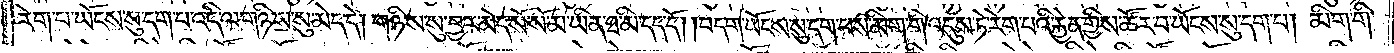རེག་པ་ཡོངས་སུ་དག་པ་འདི་ལ་གཉིས་སུ་མེད་དེ། གཉིས་སུ་བྱར་མེད་སོ་སོ་མ་ཡིན་ཐ་མི་དད་དོ། །བདག་ཡོངས་སུ་དག་པས་མིག་གི་འདུས་ཏེ་རེག་པའི་རྐྱེན་གྱིས་ཚོར་བ་ཡོངས་སུ་དག་པ། མིག་གི་
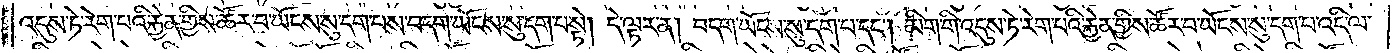འདུས་ཏེ་རེག་པའི་རྐྱེན་གྱིས་ཚོར་བ་ཡོངས་སུ་དག་པས་བདག་ཡོངས་སུ་དག་པ་སྟེ། དེ་ལྟར་ན། བདག་ཡོངས་སུ་དག་པ་དང༌། མིག་གི་འདུས་ཏེ་རེག་པའི་རྐྱེན་གྱིས་ཚོར་བ་ཡོངས་སུ་དག་པ་འདི་ལ་
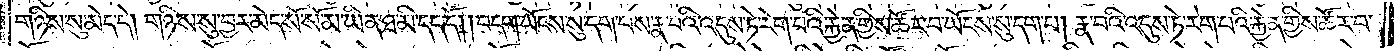གཉིས་སུ་མེད་དེ། གཉིས་སུ་བྱར་མེད་སོ་སོ་མ་ཡིན་ཐ་མི་དད་དོ། །བདག་ཡོངས་སུ་དག་པས་རྣ་བའི་འདུས་ཏེ་རེག་པའི་རྐྱེན་གྱིས་ཚོར་བ་ཡོངས་སུ་དག་པ། རྣ་བའི་འདུས་ཏེ་རེག་པའི་རྐྱེན་གྱིས་ཚོར་བ་
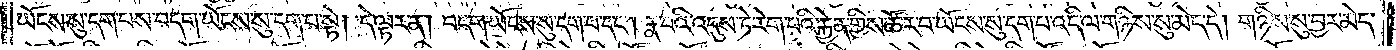ཡོངས་སུ་དག་པས་བདག་ཡོངས་སུ་དག་པ་སྟེ། དེ་ལྟར་ན། བདག་ཡོངས་སུ་དག་པ་དང༌། རྣ་བའི་འདུས་ཏེ་རེག་པའི་རྐྱེན་གྱིས་ཚོར་བ་ཡོངས་སུ་དག་པ་འདི་ལ་གཉིས་སུ་མེད་དེ། གཉིས་སུ་བྱར་མེད་
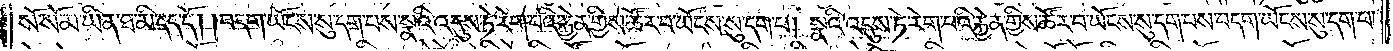སོ་སོ་མ་ཡིན་ཐ་མི་དད་དོ། །བདག་ཡོངས་སུ་དག་པས་སྣའི་འདུས་ཏེ་རེག་པའི་རྐྱེན་གྱིས་ཚོར་བ་ཡོངས་སུ་དག་པ། སྣའི་འདུས་ཏེ་རེག་པའི་རྐྱེན་གྱིས་ཚོར་བ་ཡོངས་སུ་དག་པས་བདག་ཡོངས་སུ་དག་པ་
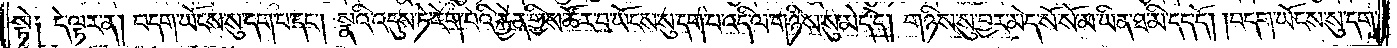སྟེ༑ དེ་ལྟར་ན། བདག་ཡོངས་སུ་དག་པ་དང༌། སྣའི་འདུས་ཏེ་རེག་པའི་རྐྱེན་གྱིས་ཚོར་བ་ཡོངས་སུ་དག་པ་འདི་ལ་གཉིས་སུ་མེད་དེ། གཉིས་སུ་བྱར་མེད་སོ་སོ་མ་ཡིན་ཐ་མི་དད་དོ། །བདག་ཡོངས་སུ་དག་
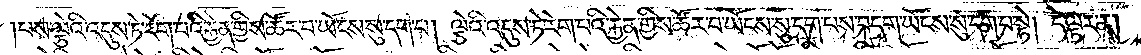པས་ལྕེའི་འདུས་ཏེ་རེག་པའི་རྐྱེན་གྱིས་ཚོར་བ་ཡོངས་སུ་དག་པ། ལྕེའི་འདུས་ཏེ་རེག་པའི་རྐྱེན་གྱིས་ཚོར་བ་ཡོངས་སུ་དག་པས་བདག་ཡོངས་སུ་དག་པ་སྟེ། དེ་ལྟར་ན།
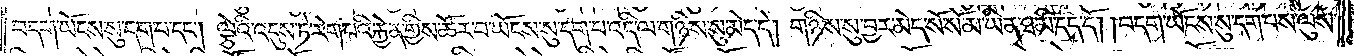བདག་ཡོངས་སུ་དག་པ་དང༌། ལྕེའི་འདུས་ཏེ་རེག་པའི་རྐྱེན་གྱིས་ཚོར་བ་ཡོངས་སུ་དག་པ་འདི་ལ་གཉིས་སུ་མེད་དེ། གཉིས་སུ་བྱར་མེད་སོ་སོ་མ་ཡིན་ཐ་མི་དད་དོ། །བདག་ཡོངས་སུ་དག་པས་ལུས་
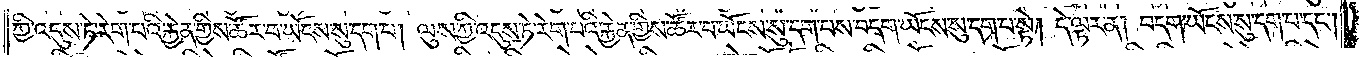ཀྱི་འདུས་ཏེ་རེག་པའི་རྐྱེན་གྱིས་ཚོར་བ་ཡོངས་སུ་དག་པ། ལུས་ཀྱི་འདུས་ཏེ་རེག་པའི་རྐྱེན་གྱིས་ཚོར་བ་ཡོངས་སུ་དག་པས་བདག་ཡོངས་སུ་དག་པ་སྟེ། དེ་ལྟར་ན། བདག་ཡོངས་སུ་དག་པ་དང༌།
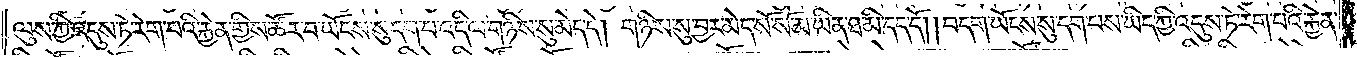ལུས་ཀྱི་འདུས་ཏེ་རེག་པའི་རྐྱེན་གྱིས་ཚོར་བ་ཡོངས་སུ་དག་པ་འདི་ལ་གཉིས་སུ་མེད་དེ། གཉིས་སུ་བྱར་མེད་སོ་སོ་མ་ཡིན་ཐ་མི་དད་དོ། །བདག་ཡོངས་སུ་དག་པས་ཡིད་ཀྱི་འདུས་ཏེ་རེག་པའི་རྐྱེན་
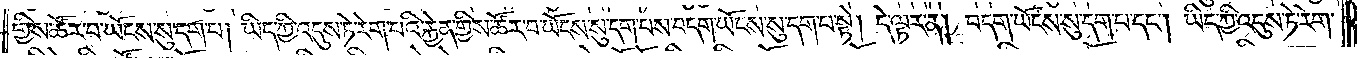གྱིས་ཚོར་བ་ཡོངས་སུ་དག་པ། ཡིད་ཀྱི་འདུས་ཏེ་རེག་པའི་རྐྱེན་གྱིས་ཚོར་བ་ཡོངས་སུ་དག་པས་བདག་ཡོངས་སུ་དག་པ་སྟེ། དེ་ལྟར་ན། བདག་ཡོངས་སུ་དག་པ་དང༌། ཡིད་ཀྱི་འདུས་ཏེ་རེག་
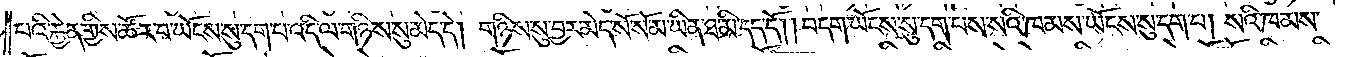པའི་རྐྱེན་གྱིས་ཚོར་བ་ཡོངས་སུ་དག་པ་འདི་ལ་གཉིས་སུ་མེད་དེ། གཉིས་སུ་བྱར་མེད་སོ་སོ་མ་ཡིན་ཐ་མི་དད་དོ། །བདག་ཡོངས་སུ་དག་པས་སའི་ཁམས་ཡོངས་སུ་དག་པ། སའི་ཁམས་
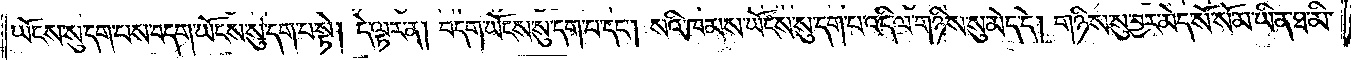ཡོངས་སུ་དག་པས་བདག་ཡོངས་སུ་དག་པ་སྟེ། དེ་ལྟར་ན། བདག་ཡོངས་སུ་དག་པ་དང༌། སའི་ཁམས་ཡོངས་སུ་དག་པ་འདི་ལ་གཉིས་སུ་མེད་དེ། གཉིས་སུ་བྱར་མེད་སོ་སོ་མ་ཡིན་ཐ་མི་
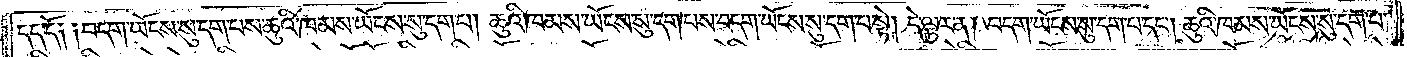དད་དོ༑ ༑བདག་ཡོངས་སུ་དག་པས་ཆུའི་ཁམས་ཡོངས་སུ་དག་པ། ཆུའི་ཁམས་ཡོངས་སུ་དག་པས་བདག་ཡོངས་སུ་དག་པ་སྟེ། དེ་ལྟར་ན། བདག་ཡོངས་སུ་དག་པ་དང༌། ཆུའི་ཁམས་ཡོངས་སུ་དག་པ་
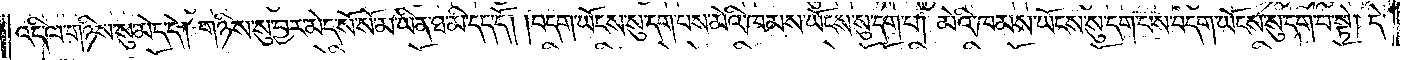འདི་ལ་གཉིས་སུ་མེད་དེ། གཉིས་སུ་བྱར་མེད་སོ་སོ་མ་ཡིན་ཐ་མི་དད་དོ། །བདག་ཡོངས་སུ་དག་པས་མེའི་ཁམས་ཡོངས་སུ་དག་པ། མེའི་ཁམས་ཡོངས་སུ་དག་པས་བདག་ཡོངས་སུ་དག་པ་སྟེ། དེ་
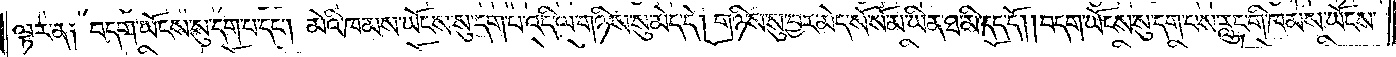ལྟར་ན༑ བདག་ཡོངས་སུ་དག་པ་དང༌། མེའི་ཁམས་ཡོངས་སུ་དག་པ་འདི་ལ་གཉིས་སུ་མེད་དེ། གཉིས་སུ་བྱར་མེད་སོ་སོ་མ་ཡིན་ཐ་མི་དད་དོ། །བདག་ཡོངས་སུ་དག་པས་རླུང་གི་ཁམས་ཡོངས་
